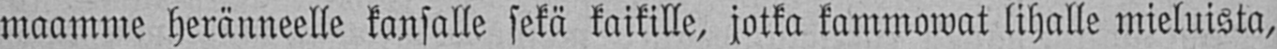maamme heränneelle kansalle sekä kaikille, jotka kammowat lihalle mieluista,
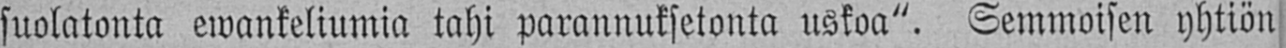suolatonta ewankeliumia tahi parannuksetonta uskoa". Semmoisen yhtiön
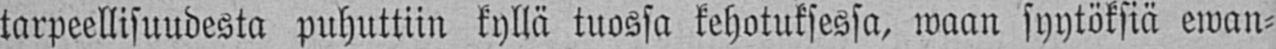tarpeellisuudesta puhuttiin kyllä tuossa kehotuksessa, waan syytöksiä ewan-
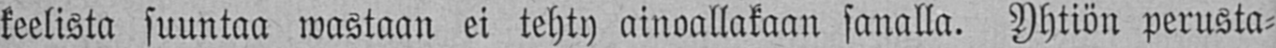keelista suuntaa wastaan ei tehty ainoallakaan sanalla. Yhtiön perusta-
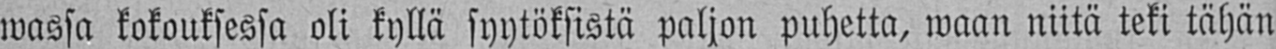wassa kokouksessa oli kyllä syytöksistä paljon puhetta, waan niitä teki tähän
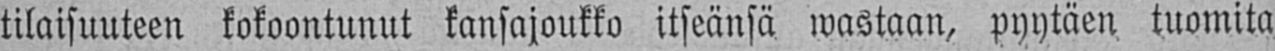tilaisuuteen kokoontunut kansajoukko itseänsä wastaan, pyytäen tuomita
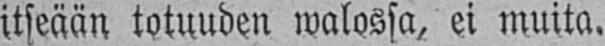itseään totuuden walossa, ei muita.
